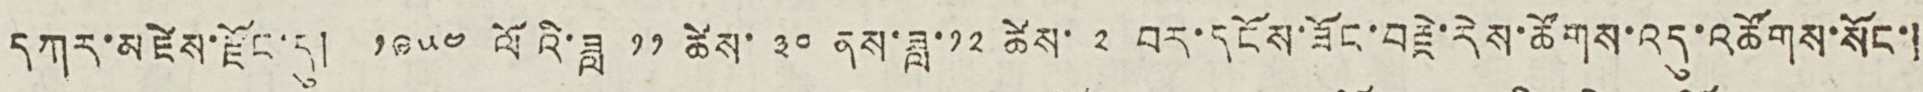དཀར་མཛེས་རྫོང་དུ། ༡༩༥༤ ལོའི་ཟླ ༡༡ ཚེས་ ༣༠ ནས་ཟླ་༡༢ ཚེས་ ༢ བར་དངོས་ཟོང་བརྗེ་རེས་ཚོགས་འདུ་འཚོགས་སོང་།
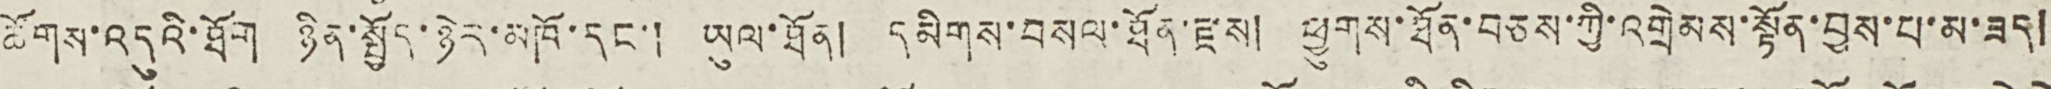ཚོགས་འདུའི་ཐོག ཉིན་སྤྱོད་ཉེར་མཁོ་དང་། ཡུལ་ཐོན། དམིགས་བསལ་ཐོན་རྫས། ཕྱུགས་ཐོན་བཅས་ཀྱི་འགྲེམས་སྟོན་བྱས་པ་མ་ཟད།
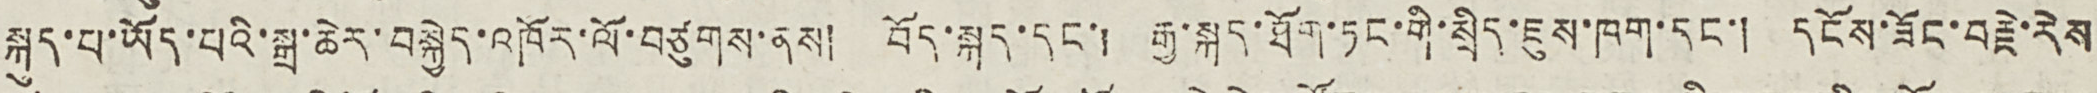སྐུད་པ་ཡོད་པའི་སྒྲ་ཆེར་བསྐྱེད་འཁོར་ལོ་བཙུགས་ནས། བོད་སྐད་དང་། རྒྱ་སྐད་ཐོག་ཏང་གི་སྲིད་ཇུས་ཁག་དང་། དངོས་ཟོང་བརྗེ་རེས
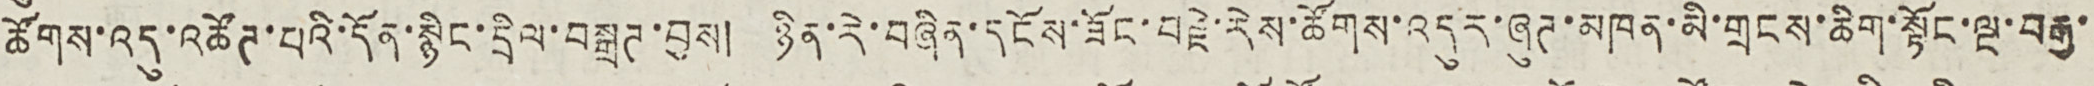ཚོགས་འདུ་འཚོཊ་པའི་དོན་སྙིང་དྲིལ་བསྒྲཊ་བྱས། ཉིན་རེ་བཞིན་དངོས་ཟོང་བརྗེ་རེས་ཚོགས་འདུར་ཞུཊ་མཁན་མི་གྲངས་ཆིག་སྟོང་ལྔ་བརྒྱ་
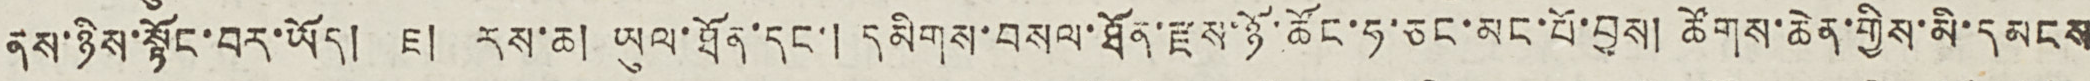ནས་ཉིས་སྟོང་བར་ཡོད། ཇ། རས་ཆ། ཡུལ་ཐོན་དང་། དམིགས་བསལ་ཐོན་རྫས་ཉོ་ཚོང་ཧ་ཅང་མང་པོ་བྱས། ཚོགས་ཆེན་གྱིས་མི་དམངས
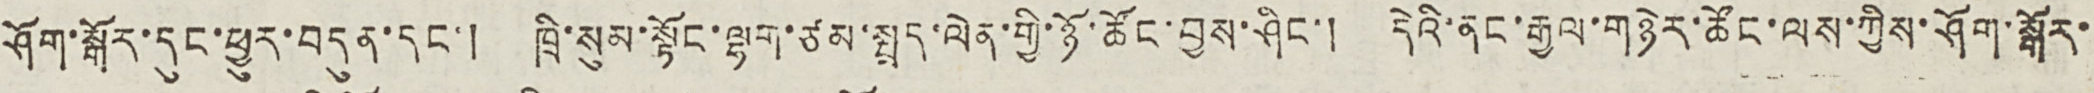ཤོག་སྒོར་དུང་ཕྱུར་བདུན་དང་། ཁྲི་སུམ་སྟོང་ལྷག་ཙམ་སྤྲད་ལེན་གྱི་ཉོ་ཚོང་བྱས་ཤིང་། དེའི་ནང་རྒྱལ་གཉེར་ཚོང་ལས་ཀྱིས་ཤོག་སྒོར་
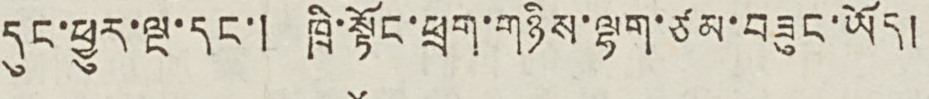དུང་ཕྱུར་ལྔ་དང་། ཁྲི་སྟོང་ཕྲག་གཉིས་ལྷག་ཙམ་བཟུང་ཡོད།
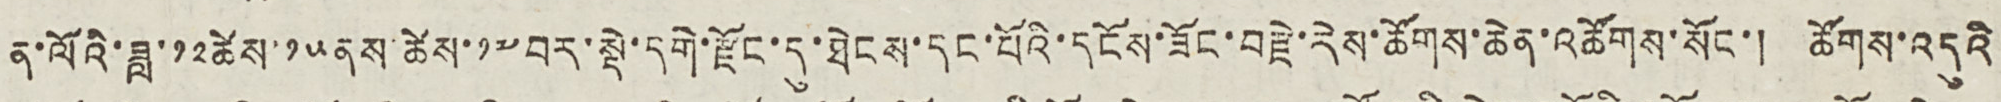ན་ལོའི་ཟླ་༡༢ཚེས་༡༥ནས་ཚེས་༡༧བར་སྡེ་དགེ་རྫོང་དུ་ཐེངས་དང་པོའི་དངོས་ཟོང་བརྗེ་རེས་ཚོགས་ཆེན་འཚོགས་སོང་། ཚོགས་འདུའི
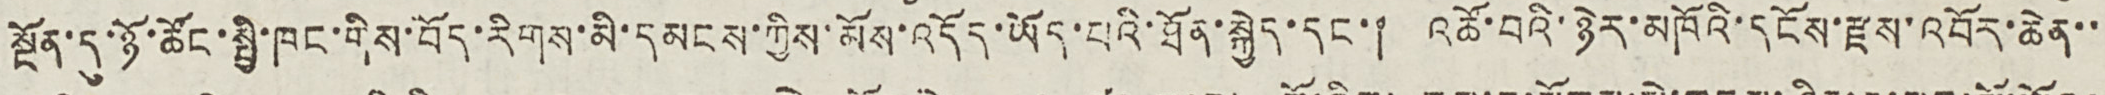སྔོན་དུ་ཉོ་ཚོང་སྤྱི་ཁང་གིས་བོད་རིགས་མི་དམངས་ཀྱིས་མོས་འདོད་ཡོད་པའི་ཐོན་སྐྱེད་དང་། འཚོ་བའི་ཉེར་མཁོའི་དངོས་རྫས་འབོར་ཆེན་་
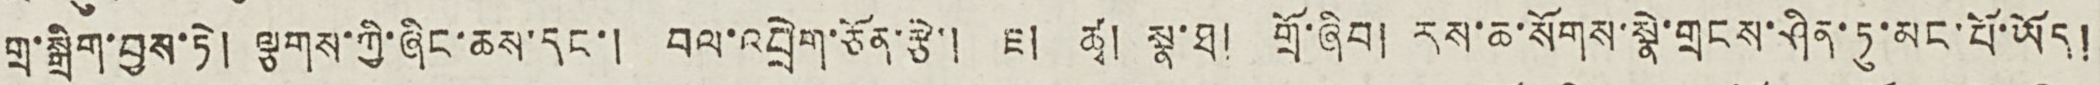གྲ་སྒྲིག་བྱས་ཏེ། ལྕགས་ཀྱི་ཞིང་ཆས་དང་། བལ་འབྲེག་ཅོན་རྩེ། ཇ། ཚྭ། སྣ་ཐ། གྲོ་ཞིབ། རས་ཆ་སོགས་སྣེ་གྲངས་ཤིན་ཏུ་མང་པོ་ཡོད།
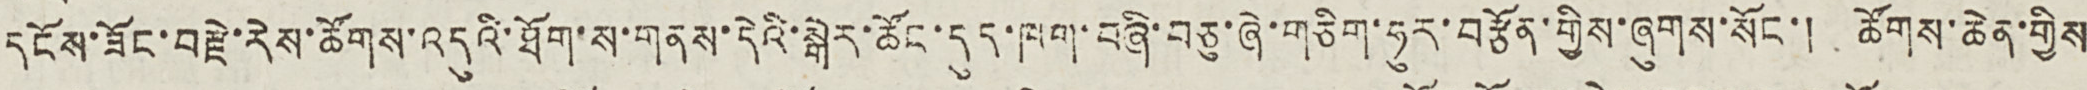དངོས་ཟོང་བརྗེ་རེས་ཚོགས་འདུའི་ཐོག་གནས་དེའི་སྒེར་ཚོང་དུད་ཁག་བཞི་བཅུ་ཞེ་གཅིག་ཧུར་བརྩོན་གྱིས་ཞུགས་སོང་། ཚོགས་ཆེན་གྱིས
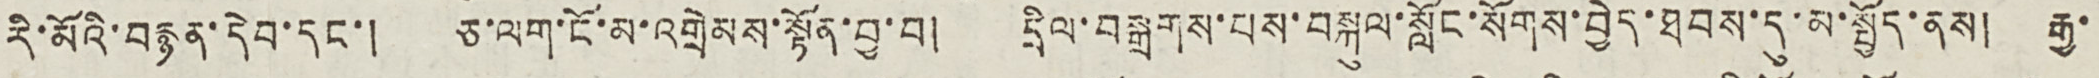རི་མོའི་བརྙན་དེབ་དང་། ཅ་ལག་ངོ་མ་འགྲེམས་སྟོན་བྱ་བ། དྲིལ་བསྒྲགས་པས་བསྐུལ་སློང་སོགས་བྱེད་ཐབས་དུ་མ་སྤྱོད་ནས། རྒྱ་
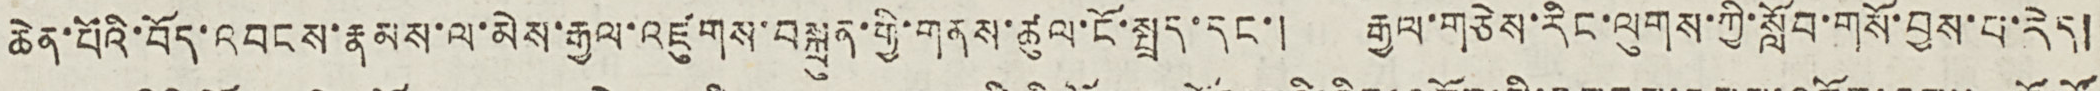ཆེན་པོའི་བོད་འབངས་རྣམས་ལ་མེས་རྒྱལ་འཛུགས་བསྐྲུན་གྱི་གནས་ཚུལ་ངོ་སྤྲད་དང་། རྒྱལ་གཅེས་རིང་ལུགས་ཀྱི་སློབ་གསོ་བྱས་པ་རེད།
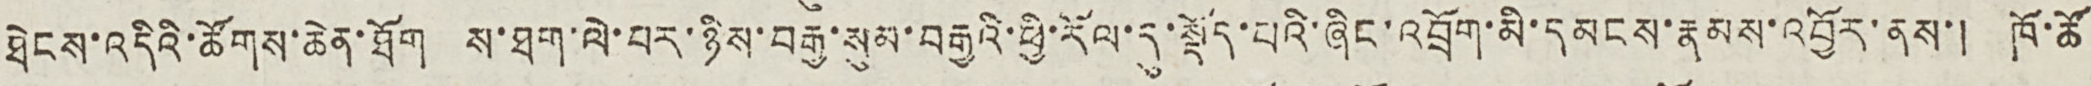ཐེངས་འདིའི་ཚོགས་ཆེན་ཐོག ས་ཐག་ལེ་ལར་ཉིས་བརྒྱ་སུམ་བརྒྱའི་ཕྱི་རོལ་དུ་སྡོད་པའི་ཞིང་འབྲོག་མི་དམངས་རྣམས་འབྱོར་ནས་། ཁོ་ཚོ
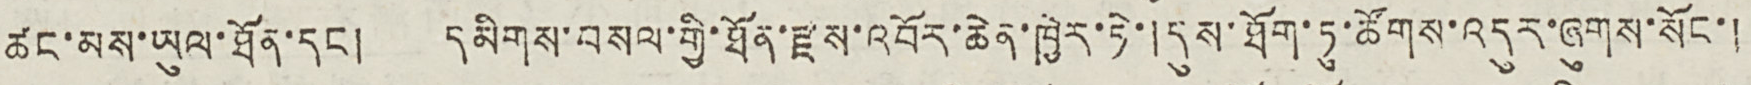ཚང་མས་ཡུལ་ཐོན་དང། དམིགས་བསལ་གྱི་ཐོན་རྫས་འབོར་ཆེན་ཁྱེར་ཏེ་། དུས་ཐོག་ཏུ་ཚོགས་འདུར་ཞུགས་སོང་།
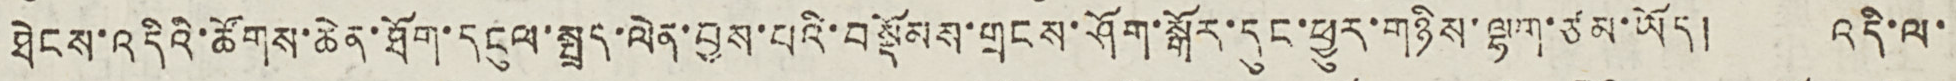ཐེངས་འདིའི་ཚོགས་ཆེན་ཐོག་དངུལ་སྤྲད་ལེན་བྱས་པའི་བསྡོམས་གྲངས་ཤོག་སྒོར་དུང་ཕྱུར་གཉིས་ལྷག་ཙམ་ཡོད། འདི་ལ་
